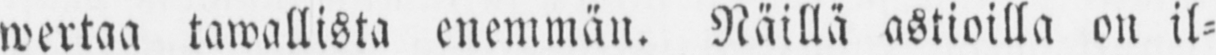wertaa tawallista enemmän. Näillä astioilla on il-
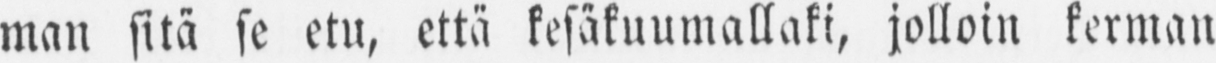man sitä se etu, että kesäkuumallaki, jolloin kerman
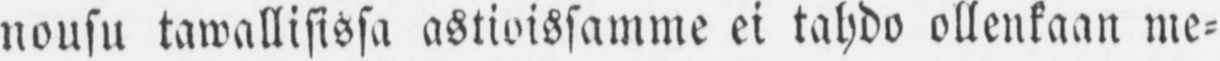nousu tawallisissa astioissamme ei tahdo ollenkaan me-
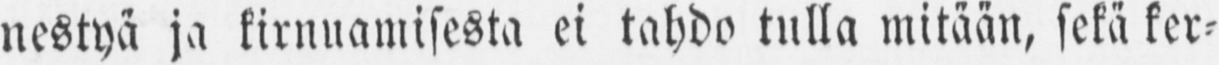nestyä ja kirnuamisesta ei tahdo tulla mitään, sekä ker-
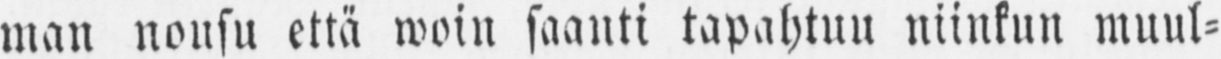man nousu että woin saanti tapahtuu niinkun muul-
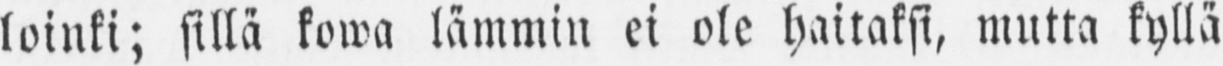loinki; sillä kowa lämmin ei ole haitaksi, mutta kyllä
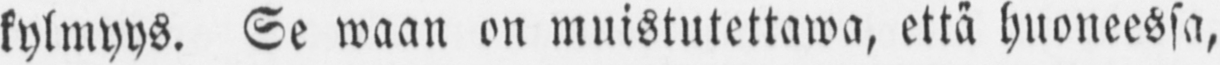kylmyys. Se waan on muistutettawa, että huoneessa,
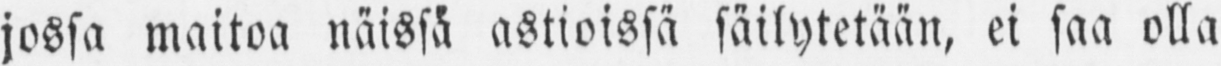jossa maitoa näissä astioissa säilytetään, ei saa olla
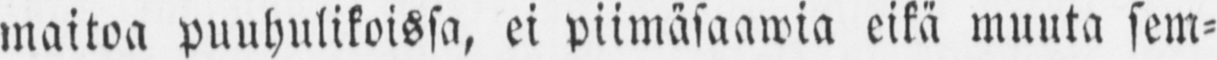maitoa puuhulikoissa, ei piimäsaawia eikä muuta sem-
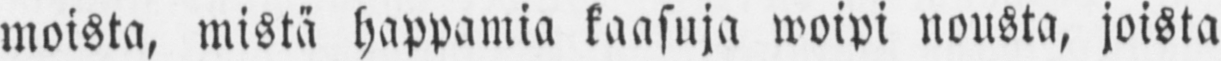moista, mistä happamia kaasuja woipi nousta, joista
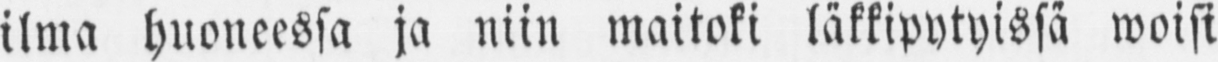ilma huoneessa ja niin maitoki läkkipytyissä woisi
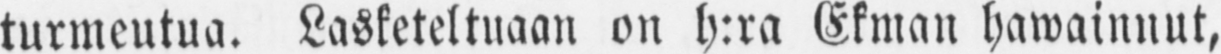turmeutua. Lasketeltuaan on h:ra Ekman hawainnut,
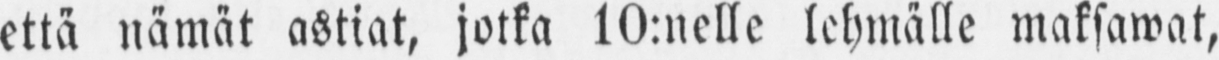että nämät astiat, jotka l0:nelle lehmälle maksawat,
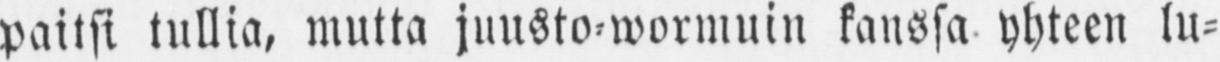paitsi tullia, mutta kanssa yhteen lu-
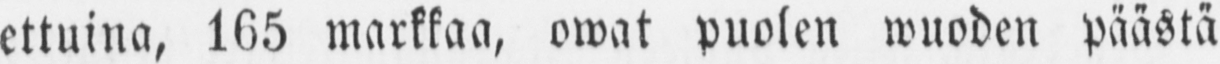ettuina, 165 markkaa, owat puolen wuoden päästä
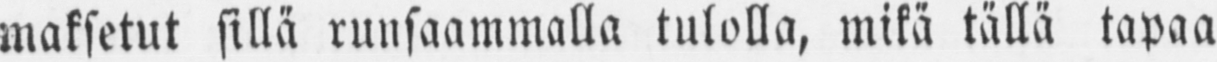maksetut sillä runsaammalla tulolla, mikä tällä tapaa
